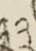༣༣
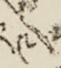༢༩
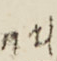༡༥
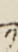༡
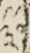༣
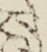སླེ
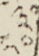༣༠
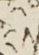༢༡
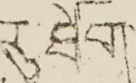རུ་ཐོག་
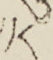༡༨
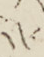༢༦
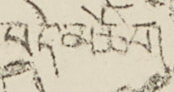བདེ་མཆོག་
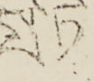སྤི་ཏི་
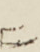༤
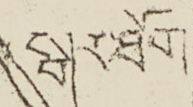སྒར་ཐོག་
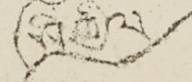ཤི་ཀྱིལ་
